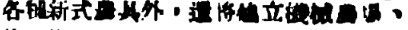各種新式農具外，還將建立機械農場、
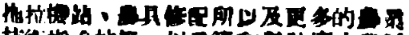拖拉機站、農具修配所以及更多的農業
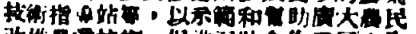技術指導站等，以示範和幫助廣大農民
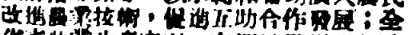改進農業技術，促進互助合作發展；全
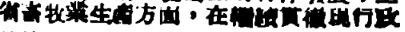省畜牧業生產方面，再繼續貫徹現行政
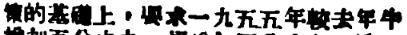策的基礎上，要求一九五五年較去年牛
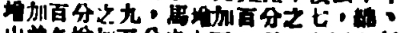增加百分之九，馬增加百分之七，綿、
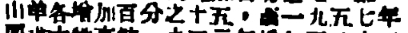山羊各增加百分之十五，至一九五七年
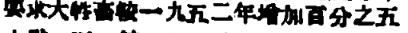要求大牲畜較一九五二年增加百分之五
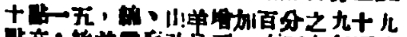十點一五，綿、山羊增加百分之九十九
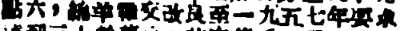點六，綿羊雜交改良至一九五七年要求
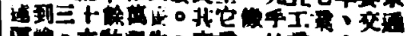達到三十餘萬隻。其它像手工業、交通
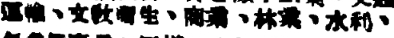運輸、文敎衛生、商業、林業、水利、
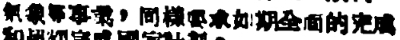氣象等事業，同樣要求如期全面的完成
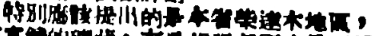特別應該提出的是本省柴達木地區，
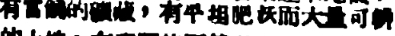有富饒的礦藏，有平坦肥沃而大量可耕
